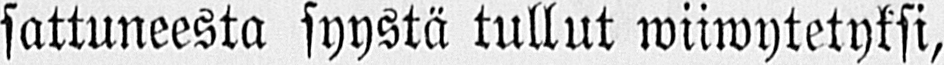sattuneesta syystä tullut wiiwytetyksi,
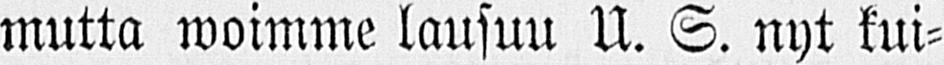mutta woimme lausuu U. S. nyt kui-
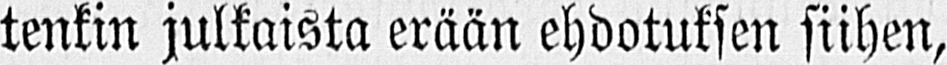tenkin julkaista erään ehdotuksen siihen,
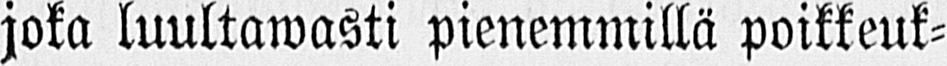joka luultawasti pienemmillä poikkeuk-
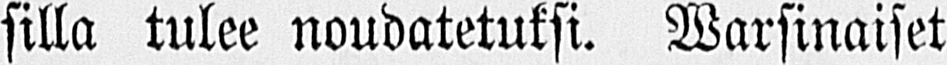silla tulee noudatetuksi. Warsinaiset
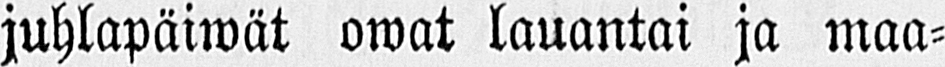juhlapäiwät owat lauantai ja maa-
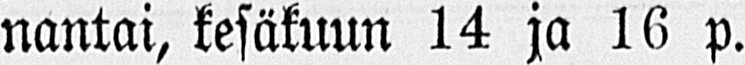nantai, kesäkuun 14 ja 16 p.
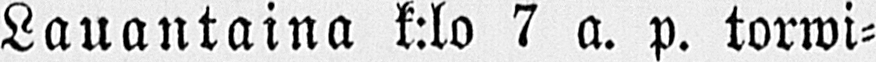Lauantaina k:lo 7 a. p. torwi-
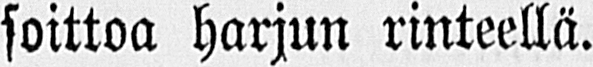soittoa harjun rinteellä.
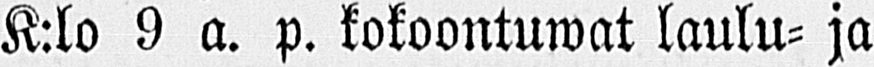K:lo 9 a. p. kokoontuwat laulu- ja
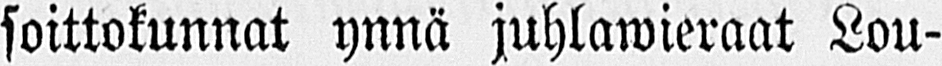soittokunnat ynnä juhlawieraat Lou-
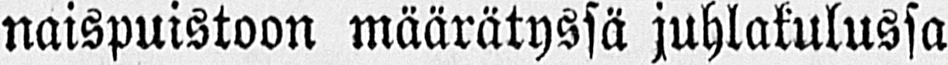naispuistoon määrätyssä juhlakulussa
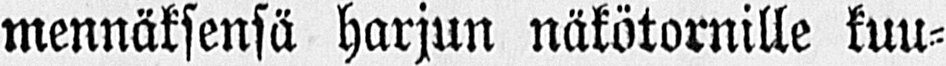mennäksensä harjun näkötornille kuu-
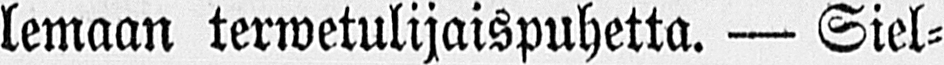lemaan terwetulijaispuhetta. — Siel-
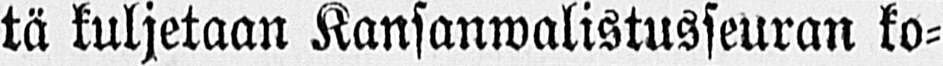tä kuljetaan Kansanwalistusseuran ko-
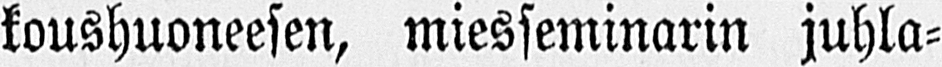koushuoneesen, miesseminarin juhla-
